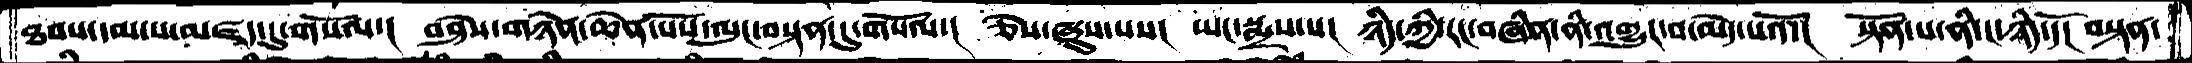ཐབས་དམ་པ་མཛད་དུ་གསོལ་།  བཤེས་གཉེན་ཆེན་པོས་ལུང་བསྟན་དུ་གསོལ་།  ཅེས་ཞུས་པས།  ཡང་སྨྲས་པ།  ཉིད་ཀྱི་རང་བཞིན་ནི་འགྱུར་བ་མེད་པའོ་།  སྟོན་པ་ནི་ང་ཉིད་དོ་།  བསྟན་
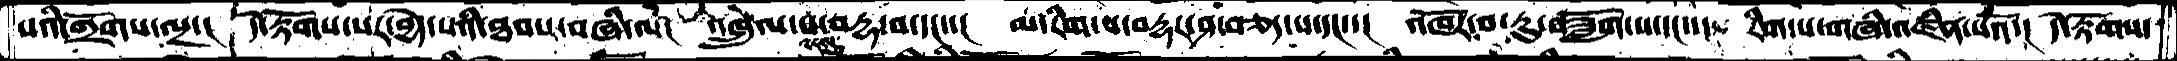པའི་གྲོགས་ལྔ་།  དེ་རྟོགས་པར་བྱེད་པའི་ཐབས་བཞི་ལ་།  འཁྲུལ་པ་འདསུ་བརྡ་བ་དང་་།  མ་རིག་པ་བརྡར་ཤ་བཅད་པ་དང་་།  འཁོར་བ་རུ་བཟློག་པ་དང་་།  རིག་པ་གཞི་འཛིན་པའོ་།  དེ་རྟོགས་
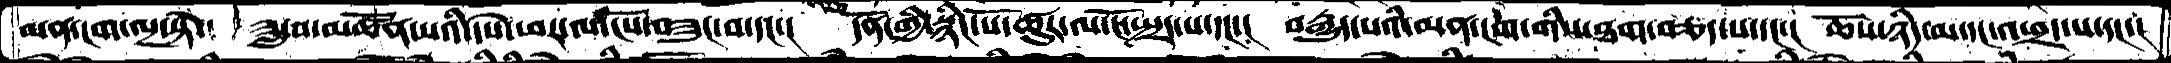མན་ངག་ལྔ་སྟེ་།  ཟླ་མཚོན་པའི་དཔེ་ཕར་ལ་ངོས་བཟུང་བ་དང་།  དོནགྱི་སྙིང་པོ་ཚུར་ལ་ངོ་སྤྲད་པ་དང་།  བརྒྱུད་པའི་མན་ངག་གིས་ཐག་བཅད་པ་དང་།  ཆོས་ཉིད་མ་དང་འཕྲད་པ་དང་།
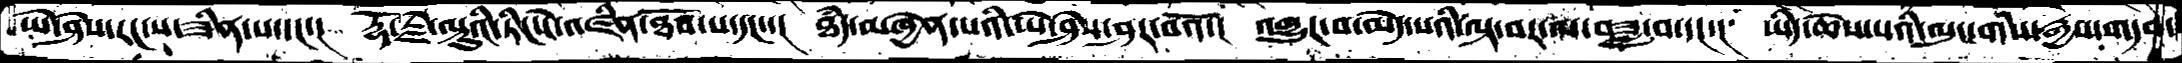ཡེ་ཤེས་རང་ས་ཟིན་པ་དང་།  རྡོ་རྗེ་ལྟུའི་ཏིང་ངེ་འཛིན་ཐོབ་པ་དང་་།  ཐདཾ་མཁྱེན་པའི་ཡེ་ཤེས་ཤར་བའོ་།  འགྱུར་བ་མེད་པའི་ལྟ་བར་ལ་བཟླ་བ་དང་།  ཡིད་ཆེས་པའི་ལུང་གིས་རྒྱས་གདབ་
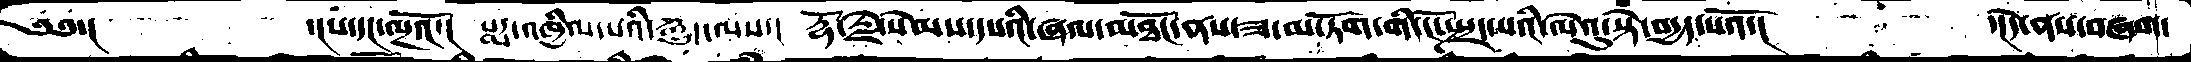༄༅་།       ་།པ་དང་ལྔའོ་།  པདྨ་འཁྱིལ་པའི་རྒྱུད་ལས་།  རྡོ་རྗེ་སེམས་དཔའི་ཞལ་མཐོང་ནས་ཟ་མ་ཏོག་གི་ངོ་སྤྲད་པའི་ལེའུ་སྟེ་བདྱད་པའོ་།     ་།དེ་ནས་བཞག་
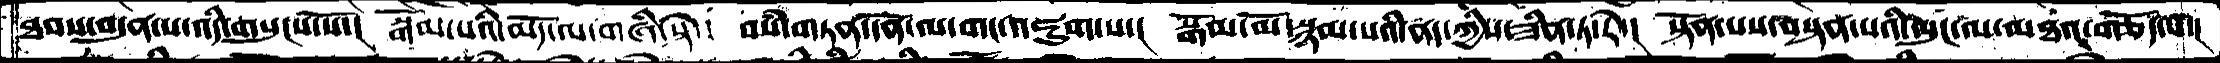ཐབས་བདུན་པ་འདི་གསུངས་སོ་།  སྒོམ་པའི་མདོ་ལ་གཞི་སྟེ་།  བསཾ་གཏན་དོན་ལ་གང་འཇུག་པ་།  སྒོམ་མོ་སྙམ་པའི་ནད་ཀྱིས་ཟིན་ཏ་རེ་།  སྟོན་པས་བསྟན་པའི་ལུང་ལ་མཐའ་གཅོད་པ་།
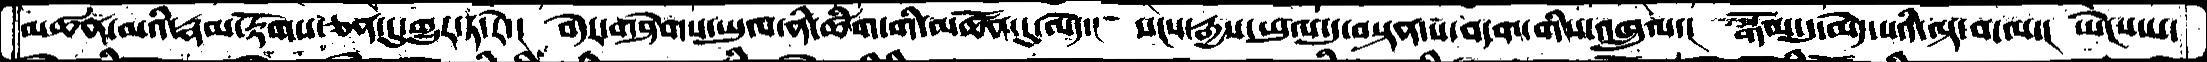མཚན་མའི་རྣམ་རྟོགས་ཅན་དུ་གྱུར་ཏ་རེ་།  བདེར་གཤེགས་ཡུལ་ནི་ཚིག་གི་མཚོན་དུ་མེད་།  སངས་རྒྱས་ཡུལ་དུ་བསྟན་པ་བདག་གིས་འཁྲུལ་།  སྒོམ་དུ་མེད་པའི་ལྟ་བ་ལ་།  ཡེངས་པ་
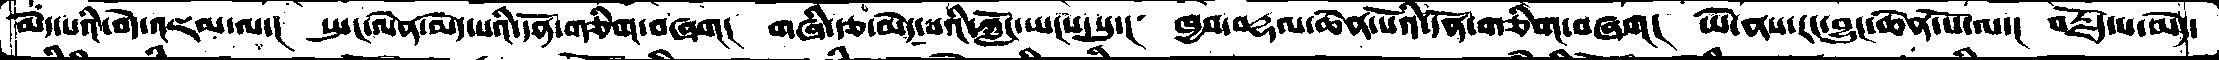མེད་པའི་བདེ་འཇམ་ལ་།  སྤང་ལེན་མེད་པའི་དོན་གཅིག་བཞག།  གཞི་རྩ་མེད་པའི་ཀློང་ཡངས་སུ་།  ཁྱབ་བརྡལ་ཆེན་པོའི་དོན་གཅིག་བཞག།  ཡེ་ནས་རང་བྱུང་ཆེན་པོ་ལ་།  བརྗོད་པ་མེད་
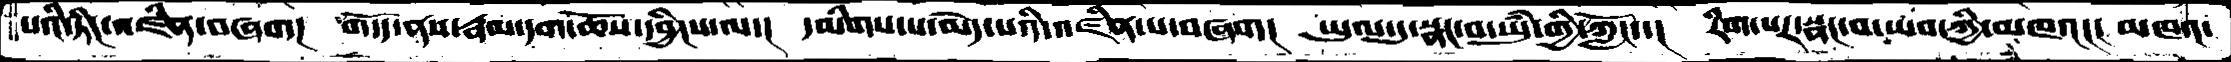པའི་ཏིང་འཛིན་བཞག།  གདོད་ནས་རྣམ་དག་ཆོས་དབྱིངས་ལ་།  དམིགས་པ་མེད་པའི་འཛིན་པ་བཞག།  ཡུལ་དུ་སྣང་བ་ཡུཾ་གྱི་ཀློང་་།   རིག་པར་སྣང་བ་ཡབ་ཀྱི་མཁའ།། མཁའ་
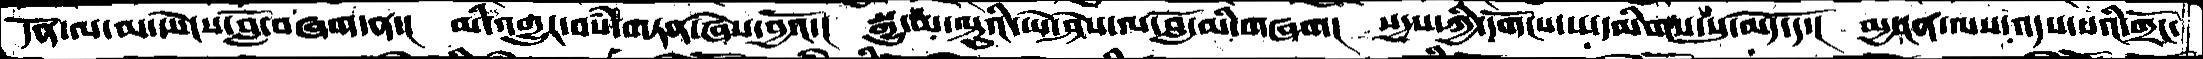དོན་ལ་མ་ཡེངས་བློ་བཞག་ན་།  མི་འགྱུར་བསཾ་གཏན་ཞེས་བྱའོ་།  སྒྱུ་མ་ལྟུའི་ཡེ་ཤེས་ལ་བློ་མི་གཞག།  སདྱས་ཀྱི་དགོངས་པ་དམིགས་སུ་མེད་དོ་།  མྱ་ངན་ལས་འདས་པའི་གྲོང་
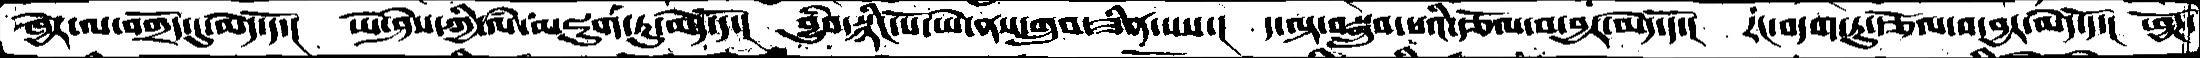ཁྱེར་ལ་བགྲོད་དུ་མེད་དོ་།  ཡེ་ཤེས་ཀྱི་ལཾ་འཇུག་ཏུ་མེད་དོ་།  བྱུཾབ་སྙིང་པོ་ཡེ་ནས་གྲུབ་ཟིན་པས་།  ད་ལྟ་བསྒྲུབ་པའི་རྩོལ་བ་བྱར་མེད་དོ་།  རང་བདག་ཏུ་རྩོལ་བ་བྱར་མེད་དོ་།  ཕྱོཌ་
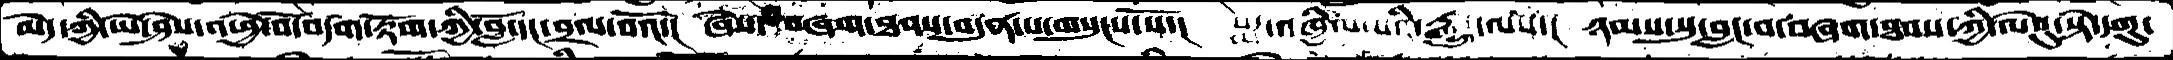མེད་ཀྱི་ཡེ་ཤེས་འཕྱེ་བོ་བདག་རྟོག་ཀྱི་བློ་དང་བྲལ་བའོ་།  ཞེས་བཞག་ཐབས་བདུན་པ་གསུངས་སོ་།  པདྨ་འཁྱིལ་པའི་རྒྱུད་ལས་།  ཉམས་སུ་བླང་བ་བཞག་ཐབས་ཀྱི་ལེའུ་སྟེ་དགུ་
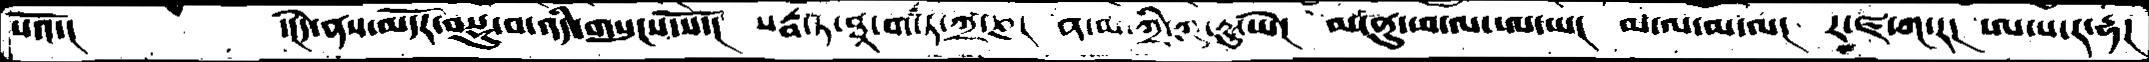པའོ་།      ་།དེ་ནས་མདོར་བསྡུ་བ་འདི་གསུངས་སོ་།  སརྦ་ཏ་ཐཱ་ག་ཏ་ཀྲ་ཎ།  ན་མ་ཀྲི་ཀུ་རུ་ཡེ།  མ་ནུ་ཕ་ལ་ཨ་ཡ།  མ་ལ་མ་ལ།   ར་ཛ་ཀ་ར།  ཨ་པ་ར་དྷ།
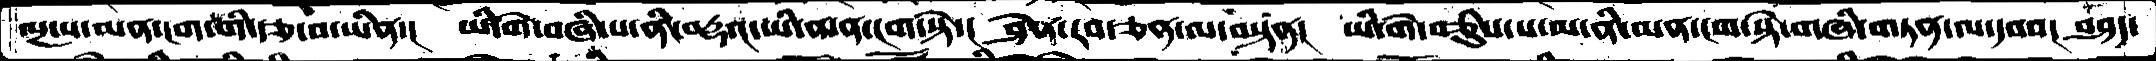ལྔ་པ་མན་ངག་གི་རྩ་བ་ཡིན་།  ཡི་གེ་བཞི་པ་ནི་བརྡའ་ཡི་མན་ངག་སྟེ་།  ཤེས་རབ་ཅན་ལ་བསྟན།  ཡི་གེ་བཅིུས་པ་ལ་ནི་མན་ངག་སྟེ་གཞི་གཏན་ལ་དབབ།  བཤད་
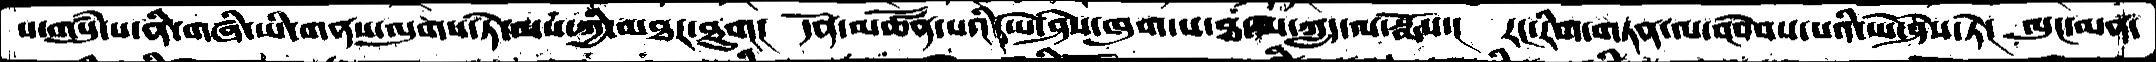པ་གསུཾ་པ་ནི་གཞི་ཡི་གནས་ལུགས་ཏེ་ལས་ཀྱི་མཐར་ཐུག།  དོན་མཚོན་པའི་ཡེ་ཤེས་ཁུག་པ་ཐབས་ཀླད་ལ་སྨོས་།  རང་རིག་གཏན་ལ་འབེབས་པའི་ཡེ་ཤེས་ཏེ་།  ལུང་མན་
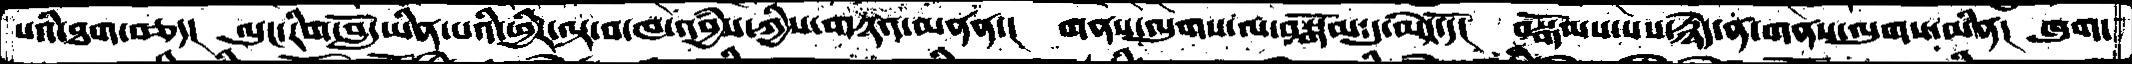པའིཐག་བཅད།  ལུང་རིག་བློ་ཡིན་པའི་ཕྱིར་ལྟ་བ་ཁ་འབྱཾས་ཀྱིས་གཉའ་མནན་།  གནས་ལུགས་ལ་བསྒོམ་དུ་མེད་དོ།  བསྒོམས་པས་རྙེད་ན་གནས་ལུགས་མིན།  ཁུག་
